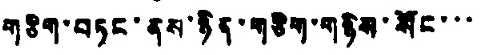གཅིག་བཏང་ནས་ཉིན་གཅིག་གཉིས་སོང་་་
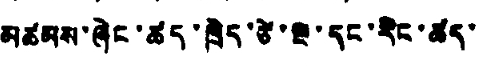མཚམས་ཞེང་ཚད་ཁྲེད་ཚེ་ལྔ་དང་རིང་ཚད་
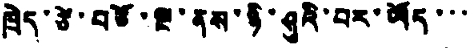ཁྲེད་ཙེ་བཅོ་ལྔ་ནས་ཉི་ཤུའི་བར་ཡོད་་་
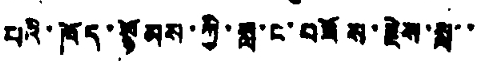པའི་ཁོད་སྙོམས་ཀྱི་སླ་ང་བཟོས་རྗེས་སླ་་
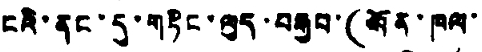ངའི་ནང་དུ་གཏིང་ལུད་བརྒྱབ་(སོན་ཁལ་
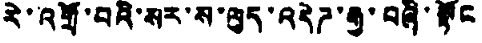རེ་འགྲོ་བའི་སར་ས་ལུད་འདེཌ་རྒྱ་བཞི་སྟོང
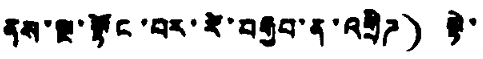ནས་ལྔ་སྟོང་བར་རེ་བརྒྱབ་ན་འགྲིཌ) སྟེ་
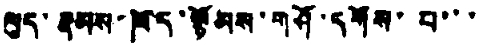ལུད་རྣམས་ཁོད་སྙོམས་གཤོ་དགོས་པ་་་
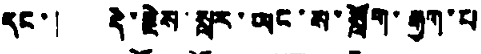དང་། དེ་རྗེས་སླར་ཡང་ས་སློག་རྒྱག་པ
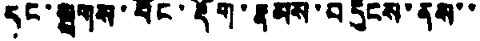དང་སྦྲགས་བོང་རྡོག་རྣམས་བརྡུངས་ནས་་
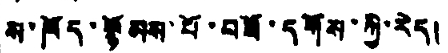ས་ཁོད་སྙོམས་པོ་བཟོ་དགོས་ཀྱི་རེད།
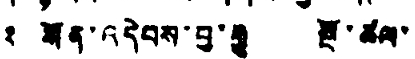༢ སོན་འདེབས་བྱ་རྒྱུ སྔོ་ཚལ་
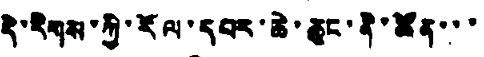དེ་རིགས་ཀྱི་རོལ་དཔར་ཆེ་ཆུང་ནི་ཚོན་་་
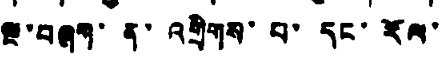ལྔ་བཞག་ན་འགྲིགས་བ་དང་རོལ་
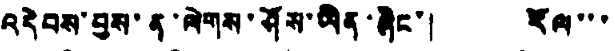འདེབས་བྱས་ན་ལེགས་ཤོས་ཡིན་ཞིང་། རོལ་་་
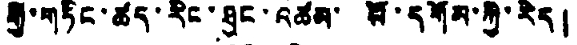རྒྱ་གཏིང་ཚད་རིང་ཐུང་འཚམ་པོ་དགོས་ཀྱི་རེད།
